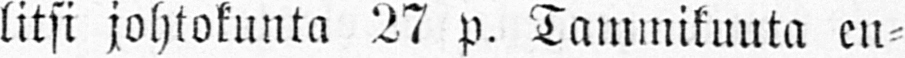litsi johtokunta 27 p. Tammikuuta en-
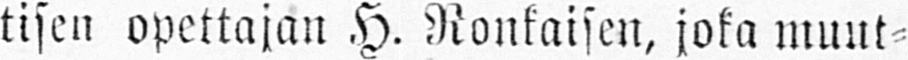tisen opettajan H. Ronkaisen, joka muut-
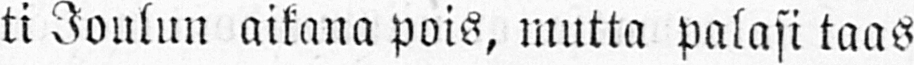ti Joulun aikana pois, mutta palasi taas
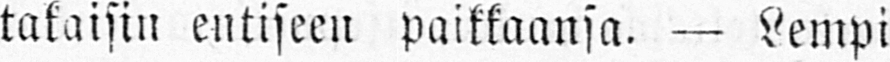takaisin entiseen paikkaansa. — Lempi-
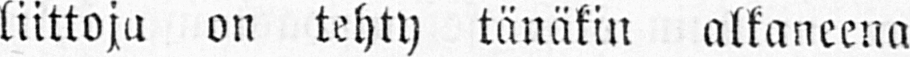liittoja on tehty tänäkin alkaneena
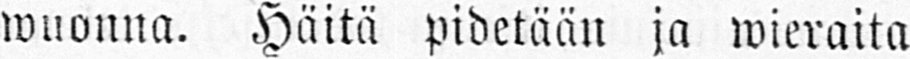wuonna. Häitä pidetään ja wieraita
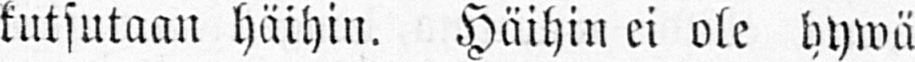kutsutaan häihin. Häihin ei ole hywä
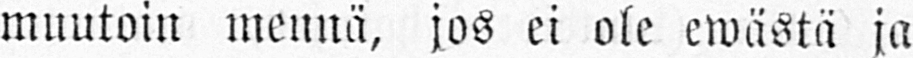muutoin mennä, jos ei ole ewästä ja
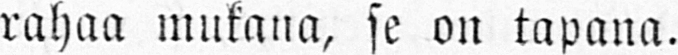rahaa mukana, se on tapana.
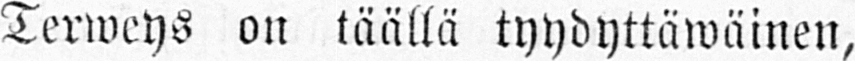Terweys on täällä tyydyttäwäinen,
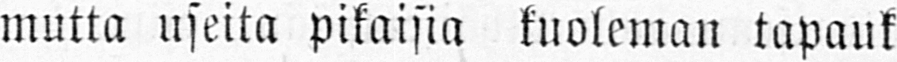mutta useita pikaisia kuoleman tapauk-
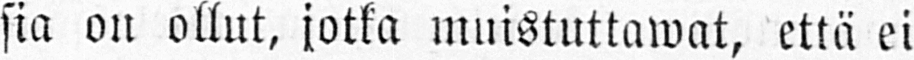sia on ollut, jotka muistuttawat, että ei
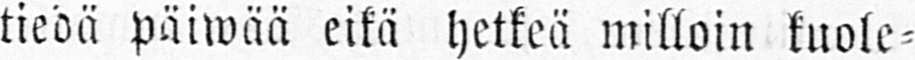tiedä päiwää eikä hetkeä milloin kuole-
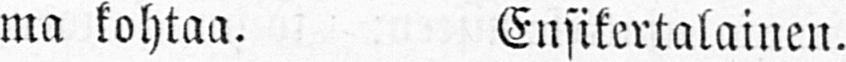ma kohtaa. Ensikertalainen.
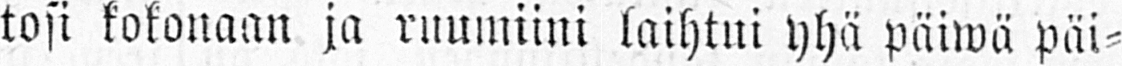tosi kokonaan ja ruumiini laihtui yhä päiwä päi-
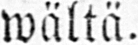wältä.
